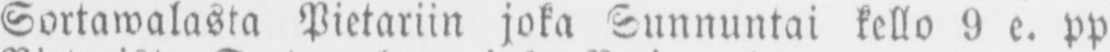Sortawalasta Pietariin joka Sunnuntai kello 9 e. pp
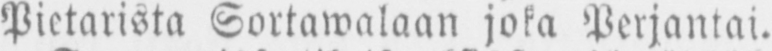Pietarista Sortawalaan joka Perjantai.
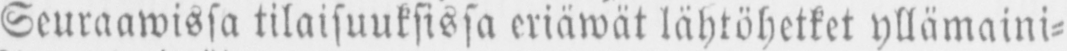Seuraawissa tilaisuuksissa eriäwät lähtöhetket yllämaini-
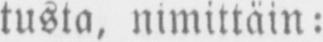tusta, nimittäin:
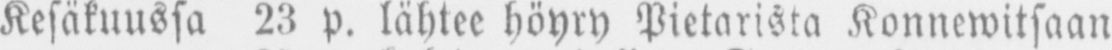Kesäkuussa 23 p. lähtee höyry Pietarista Konnewitsaan
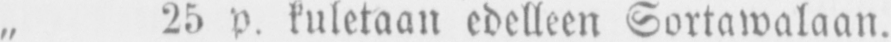„ 25 p. kuletaan edelleen Sortawalaan.
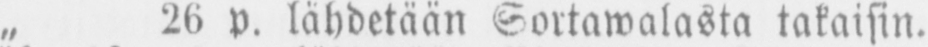„ 26 p. lähdetään Sortawalasta takaisin.
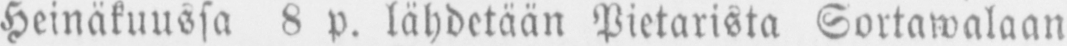Heinäkuussa 8 p. lähdetään Pietarista Sortawalaan
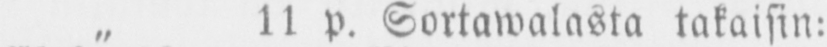„ 11 p. Sortawalasta takaisin:
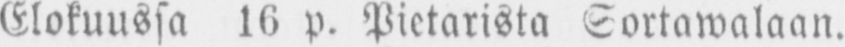Elokuussa 16 p. Pietarista Sortawalaan.
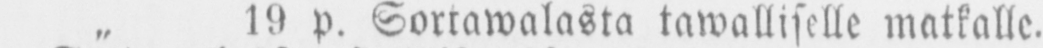„ 19 p. Sortawalasta tawalliselle matkalle.
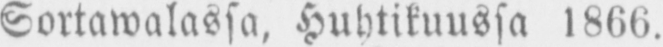Sortawalassa, Huhtikuussa 1866.
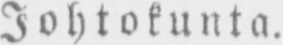Johtokunta.
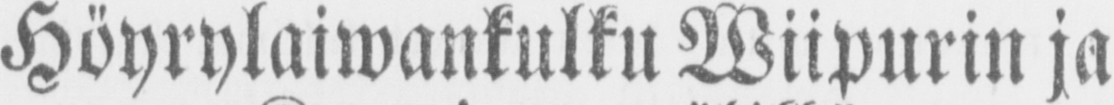Höyrylaiwankulku Wiipurin ja
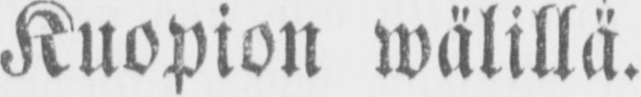Kuopion wälillä.
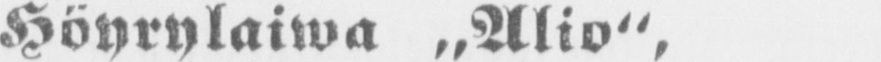Hörylaiwa „ Alio",
